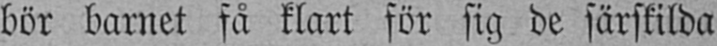bör barnet få klart för sig de särskilda
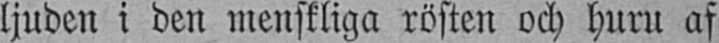ljuden i den menskliga rösten och huru af
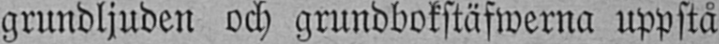grundljuden och grundbokstäfwerna uppstå
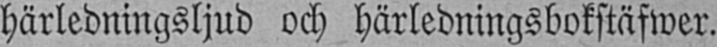härledningsljud och härledningsbokstäfwer.
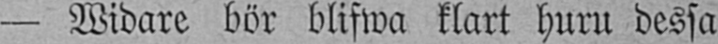— Widare bör blifwa klart huru dessa
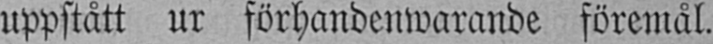uppstått ur förhandenwarande föremal.
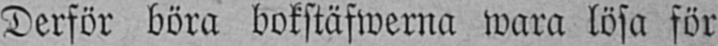Derför böra bokstäfwerna wara lösa för
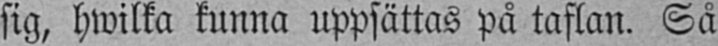sig, hwilka kunna uppsättas på taflan. Så
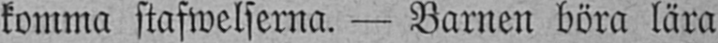komma stafwelserna. — Barnen böra lära
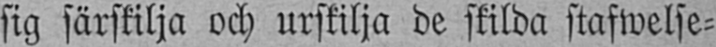sig särskilja och urskilja de skilda stafwelse-
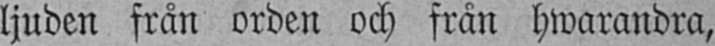ljuden från orden och från hwarandra,
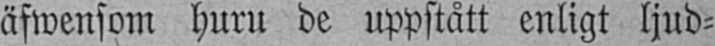äfwensom huru de uppstätt enligt ljud-
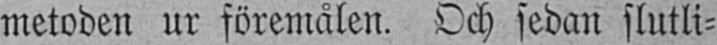metoden ur föremålen. Och sedan slutli-
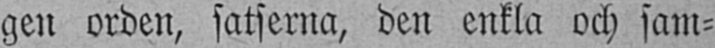gen orden, satserna, den enkla och sam-
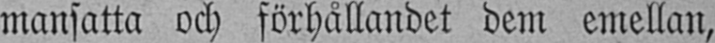mansatta och förhållandet dem emellan,
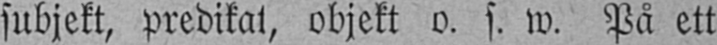subjekt, predikat, objekt o. s. w. På ett
